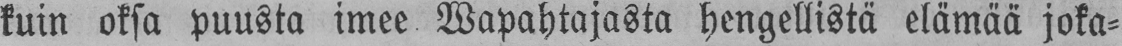kuin oksa puusta imee Wapahtajasta hengellistä elämää joka-
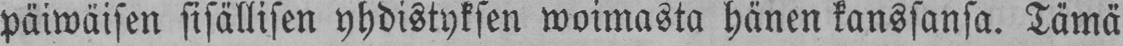päiwäisen sisällisen yhdistyksen woimasta hänen kanssansa. Tämä
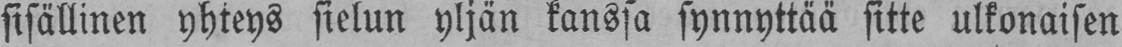sisällinen yhteys sielun yljän kanssa synnyttää sitte ulkonaisen
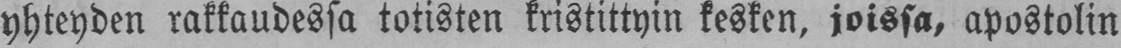yhteyden rakkaudessa totisten kristittyin kesken, joissa, apostolin
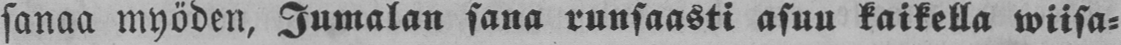sanaa myöden, Jumalan sana runsaasti asuu kaikella wiisa-
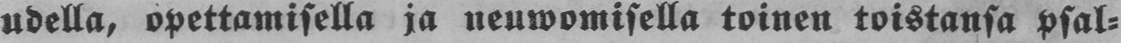udella, opettamisella ja neuwomisella toinen toistansa psal-
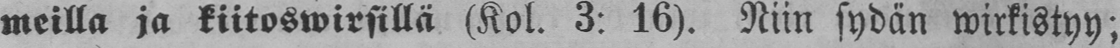meilla ja kiitoswirsillä (Kol.3: 16). Niin sydän wirkistyy;
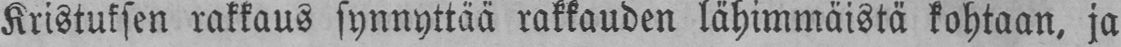Kristuksen rakkaus synnyttää rakkauden lähimmäistä kohtaan, ja
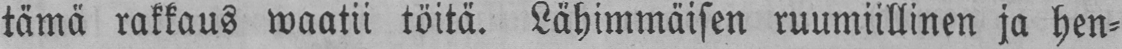tämä rakkaus waatii töitä. Lähimmäisen ruumiillinen ja hen-
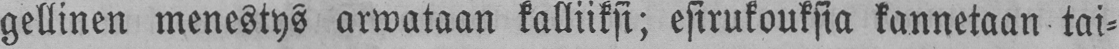gellinen menestys arwataan kalliiksi; esirukouksia kannetaan tai-
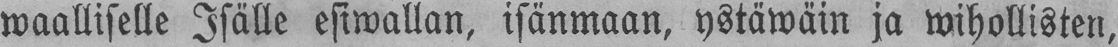waalliselle Isälle esiwallan, isänmaan, ystäwäin ja wihollisten,
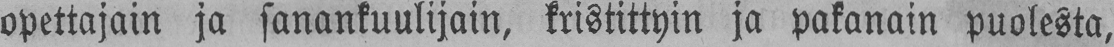opettajain ja sanankuulijain, kristittyin ja pakanain puolesta,
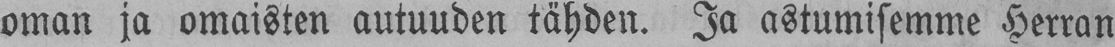oman ja omaisten autuuden tähden. Ja astumisemme Herran
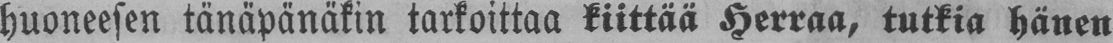huoneesen tänäpänäkin tarkoittaa kiittää Herraa, tutkia hänen
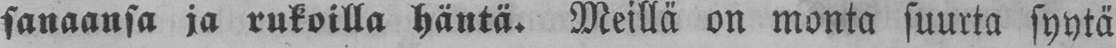sanaansa ja rukoilla häntä. Meillä on monta suurta syytä
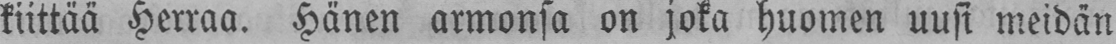kiittää Herraa. Hänen armonsa on joka huomen uusi meidän
